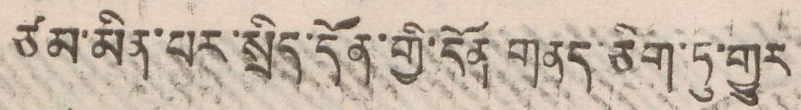ཙམ་མིན་པར་སྲིད་དོན་གྱི་དོན གནད་ཅིག་ཏུ་གྱུར
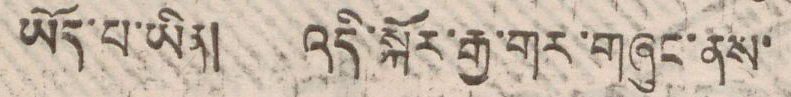ཡོད་པ་ཡིན། འདི་སྐོར་རྒྱ་གར་གཞུང་ནས་
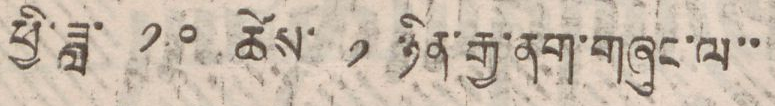ཕྱི་ཟླ་ ༡༠ ཚེས་ ༡ ཉིན་རྒྱ་ནག་གཞུང་ལ་་
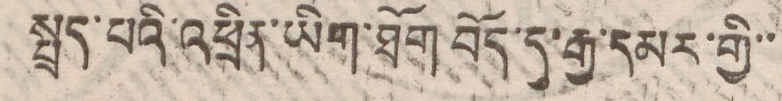སྤྲད་པའི་འཕྲིན་ཡིག་ཐོག་བོད་དུ་རྒྱ་དམར་གྱི་་
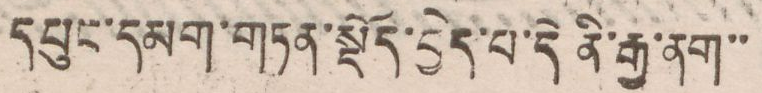དཔུང་དམག་གཏན་སྡོད་བྱེད་པ་དེ ནི་རྒྱ་ནག་་
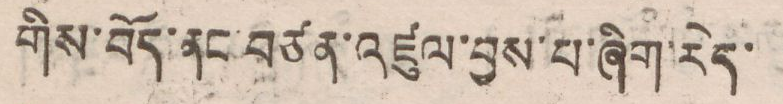གིས་བོད་ནང་བཙན་འཛུལ་བྱས་པ་ཞིག་རེད་
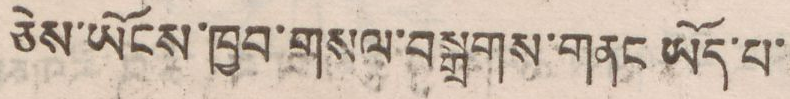ཅེས་ཡོངས་ཁྱབ་གསལ་བསྒྲགས་གནང ཡོད་པ་
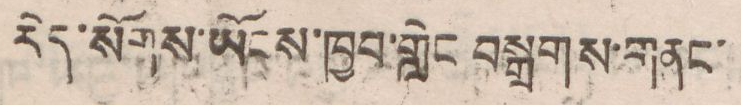རེད་སོགས་ཡོངས་ཁྱབ་གླེང བསྒྲགས་གནང་
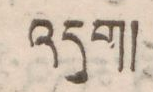འདུག།
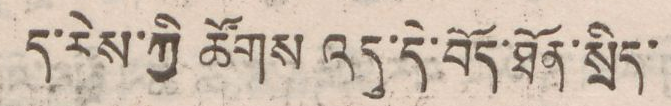ད་རེས་ཀྱི ཚོགས་འདུ་དེ་བོད་ཐོན་སྲིད་
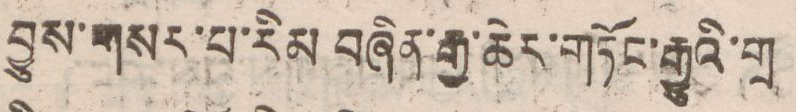བྱུས་གསར་པ་རིམ བཞིན་རྒྱ་ཆེར་གཏོང་རྒྱུའི་གྲ
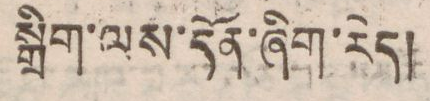སྒྲིག་ལས་དོན་ཞིག་རེད།
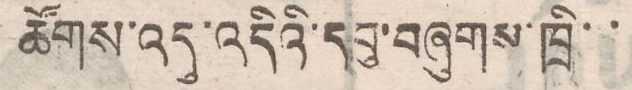ཚོགས་འདུ་འདིའི་དབུ་བཞུགས་ཁྲི་་
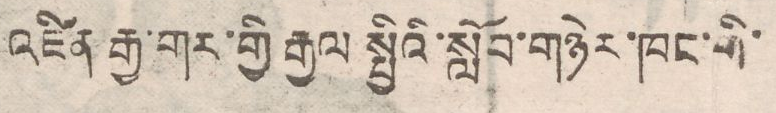འཛིན རྒྱ་གར་གྱི རྒྱལ སྤྱིའི་སློབ་གཉེར་ཁང་གི་
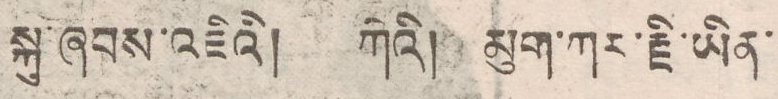སྐུ་ཞབས་འཇིའི། ཀེའ། མུག་ཀར་རྗི་ཡིན་
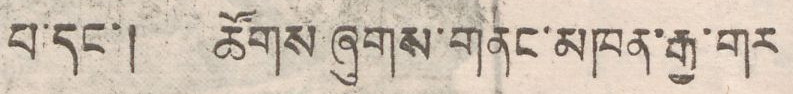པ་དང་། ཚོགས ཞུགས་གནང་མཁན་རྒྱ་གར
